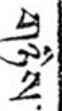གཉིས་
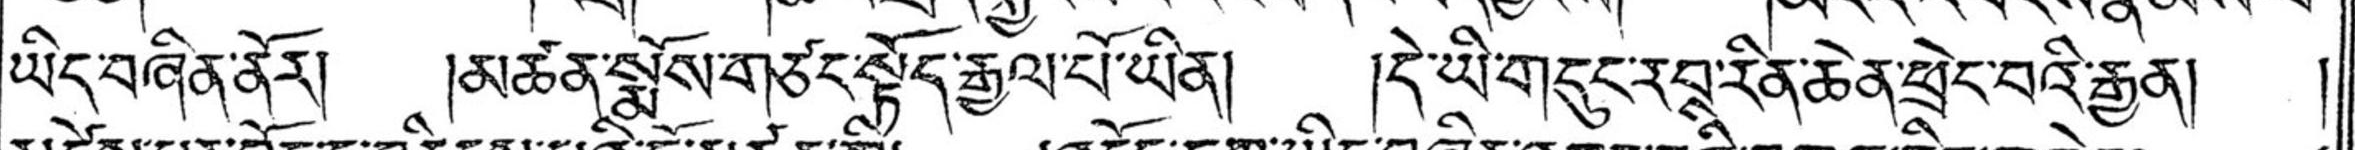ཡིད་བཞིན་ནོར། །མཚན་སྨོས་གཙང་སྟོད་རྒྱལ་པོ་ཡིན། དེ་ཡི་གདུང་རབ་རིན་ཆེན་ཕྲེང་བའི་རྒྱན། །
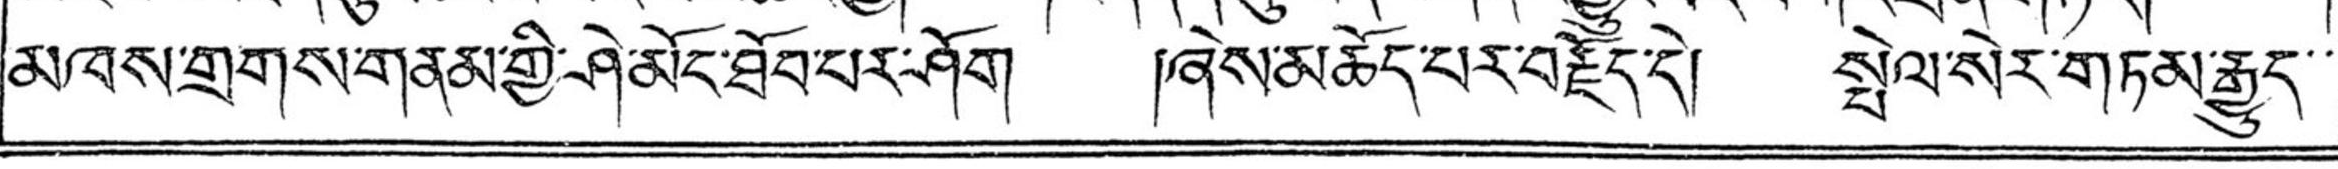མཁས་གྲགས་གནམ་གྱི་ཤེ་མོང་ཐོབ་པར་ཤོག །ཞེས་མཆོད་པར་བརྗོད་དེ། སྤེལ་སེར་གཏམ་རྒྱུད་་
